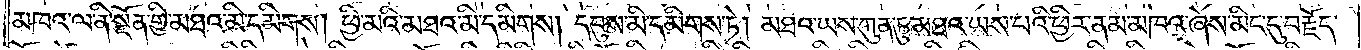མཁའ་ལ་ནི་སྔོན་གྱི་མཐའ་མི་དམིགས། ཕྱི་མའི་མཐའ་མི་དམིགས། དབུས་མི་དམིགས་ཏེ། མཐའ་ཡས་ཀུན་ཏུ་མཐའ་ཡས་པའི་ཕྱིར་ནམ་མཁའ་ཞེས་མིང་དུ་བརྗོད་
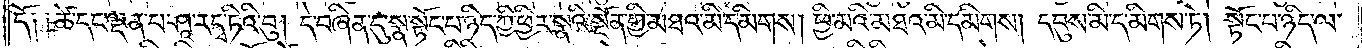དོ། །ཚེ་དང་ལྡན་པ་ཤཱ་ར་དྭ་ཏིའི་བུ། དེ་བཞིན་དུ་སྣ་སྟོང་པ་ཉིད་ཀྱི་ཕྱིར་སྣའི་སྔོན་གྱི་མཐའ་མི་དམིགས། ཕྱི་མའི་མཐའ་མི་དམིགས། དབུས་མི་དམིགས་ཏེ། སྟོང་པ་ཉིད་ལ་
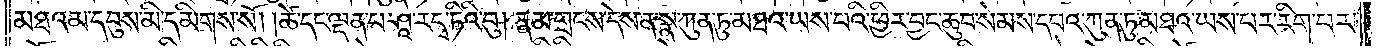མཐའམ་དབུས་མི་དམིགས་སོ། །ཚེ་དང་ལྡན་པ་ཤཱ་ར་དྭ་ཏིའི་བུ། རྣམ་གྲངས་དེས་ན་སྣ་ཀུན་ཏུ་མཐའ་ཡས་པའི་ཕྱིར་བྱང་ཆུབ་སེམས་དཔའ་ཀུན་ཏུ་མཐའ་ཡས་པར་རིག་པར་
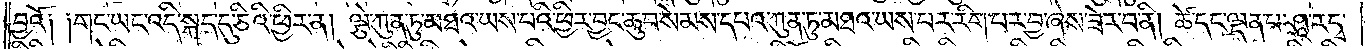བྱའོ། །གང་ཡང་འདི་སྐད་དུ་ཅིའི་ཕྱིར་ན། ལྕེ་ཀུན་ཏུ་མཐའ་ཡས་པའི་ཕྱིར་བྱང་ཆུབ་སེམས་དཔའ་ཀུན་ཏུ་མཐའ་ཡས་པར་རིག་པར་བྱ་ཞེས་ཟེར་བ་ནི། ཚེ་དང་ལྡན་པ་ཤཱ་ར་དྭ་
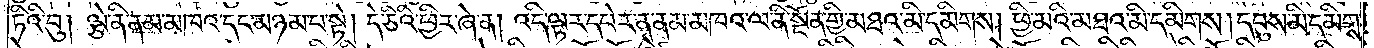ཏིའི་བུ། ལྕེ་ནི་ནམ་མཁའ་དང་མཉམ་པ་སྟེ། དེ་ཅིའི་ཕྱིར་ཞེ་ན། འདི་ལྟར་དཔེར་ན་ནམ་མཁའ་ལ་ནི་སྔོན་གྱི་མཐའ་མི་དམིགས། ཕྱི་མའི་མཐའ་མི་དམིགས། དབུས་མི་དམིགས་
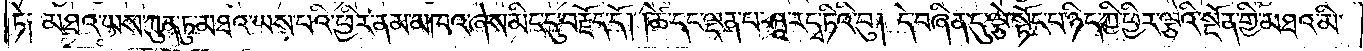ཏེ། མཐའ་ཡས་ཀུན་ཏུ་མཐའ་ཡས་པའི་ཕྱིར་ནམ་མཁའ་ཞེས་མིད་དུ་བརྗོད་དོ། །ཚེ་དང་ལྡན་པ་ཤཱ་ར་དྭ་ཏིའི་བུ། དེ་བཞིན་དུ་ལྕེ་སྟོང་པ་ཉིད་ཀྱི་ཕྱིར་ལྕེའི་སྔོན་གྱི་མཐའ་མི་
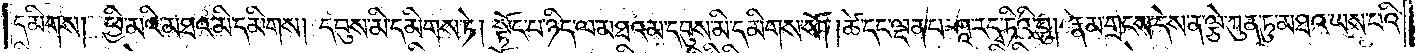དམིགས། ཕྱི་མའི་མཐའ་མི་དམིགས། དབུས་མི་དམིགས་ཏེ། སྟོང་པ་ཉིད་ལ་མཐའམ་དབུས་མི་དམིགས་སོ། །ཚེ་དང་ལྡན་པ་ཤཱ་ར་དྭ་ཏིའི་བུ། རྣམ་གྲངས་དེས་ན་ལྕེ་ཀུན་ཏུ་མཐའ་ཡས་པའི་
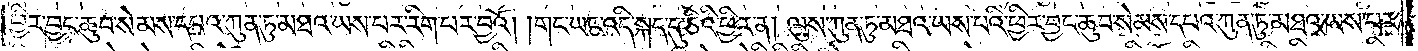ཕྱིར་བྱང་ཆུབ་སེམས་དཔའ་ཀུན་ཏུ་མཐའ་ཡས་པར་རིག་པར་བྱའོ། །གང་ཡང་འདི་སྐད་དུ་ཅིའི་ཕྱིར་ན། ལུས་ཀུན་ཏུ་མཐའ་ཡས་པའི་ཕྱིར་བྱང་ཆུབ་སེམས་དཔའ་ཀུན་ཏུ་མཐའ་ཡས་པར་
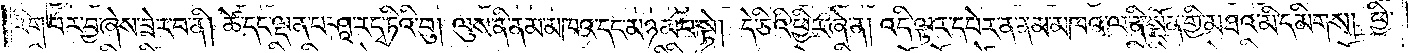རིག་པར་བྱ་ཞེས་ཟེར་བ་ནི། ཚེ་དང་ལྡན་པ་ཤཱ་ར་དྭ་ཏིའི་བུ། ལུས་ནི་ནམ་མཁའ་དང་མཉམ་པ་སྟེ། དེ་ཅིའི་ཕྱིར་ཞེ་ན། འདི་ལྟར་དཔེར་ན་ནམ་མཁའ་ལ་ནི་སྔོན་གྱི་མཐའ་མི་དམིགས། ཕྱི་
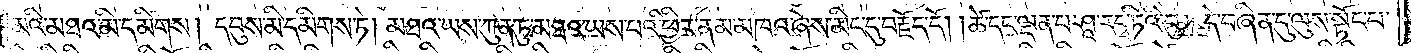མའི་མཐའ་མི་དམིགས། དབུས་མི་དམིགས་ཏེ། མཐའ་ཡས་ཀུན་ཏུ་མཐའ་ཡས་པའི་ཕྱིར་ནམ་མཁའ་ཞེས་མིང་དུ་བརྗོད་དོ། །ཚེ་དང་ལྡན་པ་ཤཱ་ར་དྭ་ཏིའི་བུ། དེ་བཞིན་དུ་ལུས་སྟོང་པ་
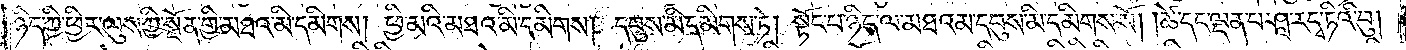ཉིད་ཀྱི་ཕྱིར་ལུས་ཀྱི་སྔོན་གྱི་མཐའ་མི་དམིགས། ཕྱི་མའི་མཐའ་མི་དམིགས། དབུས་མི་དམིགས་ཏེ། སྟོང་པ་ཉིད་ལ་མཐའམ་དབུས་མི་དམིགས་སོ། །ཚེ་དང་ལྡན་པ་ཤཱ་ཤཱ་ར་དྭ་ཏིའི་བུ།
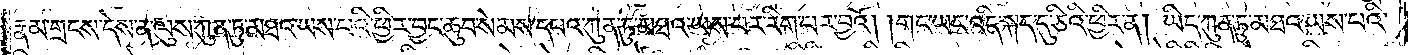རྣམ་གྲངས་དེས་ན་ལུས་ཀུན་ཏུ་མཐའ་ཡས་པའི་ཕྱིར་བྱང་ཆུབ་སེམས་དཔའ་ཀུན་ཏུ་མཐའ་ཡས་པར་རིག་པར་བྱའོ། །གང་ཡང་འདི་སྐད་དུ་ཅིའི་ཕྱིར་ན། ཡིད་ཀུན་ཏུ་མཐའ་ཡས་པའི་
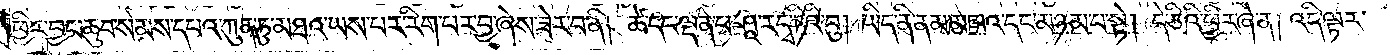ཕྱིར་བྱང་ཆུབ་སེམས་དཔའ་ཀུན་ཏུ་མཐའ་ཡས་པར་རིག་པར་བྱ་ཞེས་ཟེར་བ་ནི། ཚེ་དང་ལྡན་པ་ཤཱ་ར་དྭ་ཏིའི་བུ། ཡིད་ནི་ནམ་མཁའ་དང་མཉམ་པ་སྟེ། དེ་ཅིའི་ཕྱིར་ཞེ་ན། འདི་ལྟར་
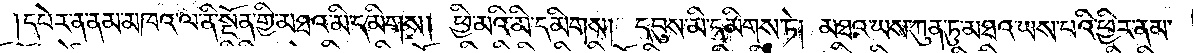དཔེར་ན་ནམ་མཁའ་ལ་ནི་སྔོན་གྱི་མཐའ་མི་དམིགས། ཕྱི་མའི་མི་དམིགས། དབུས་མི་དམིགས་ཏེ། མཐའ་ཡས་ཀུན་ཏུ་མཐའ་ཡས་པའི་ཕྱིར་ནམ་
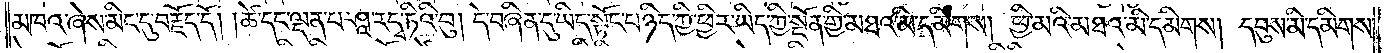མཁའ་ཞེས་མིང་དུ་བརྗོད་དོ། །ཚེ་དང་ལྡན་པ་ཤཱ་ར་དྭ་ཏིའི་བུ། དེ་བཞིན་དུ་ཡིད་སྟོང་པ་ཉིད་ཀྱི་ཕྱིར་ཡིད་ཀྱི་སྔོན་གྱི་མཐའ་མི་དམིགས། ཕྱི་མའི་མཐའ་མི་དམིགས། དབུས་མི་དམིགས་
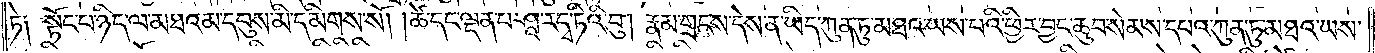ཏེ༑ སྟོང་པ་ཉིད་ལ་མཐའམ་དབུས་མི་དམིགས་སོ། །ཚེ་དང་ལྡན་པ་ཤཱ་ར་དྭ་ཏིའི་བུ། རྣམ་གྲངས་དེས་ན་ཡིད་ཀུན་ཏུ་མཐའ་ཡས་པའི་ཕྱིར་བྱང་ཆུབ་སེམས་དཔའ་ཀུན་ཏུ་མཐའ་ཡས་
